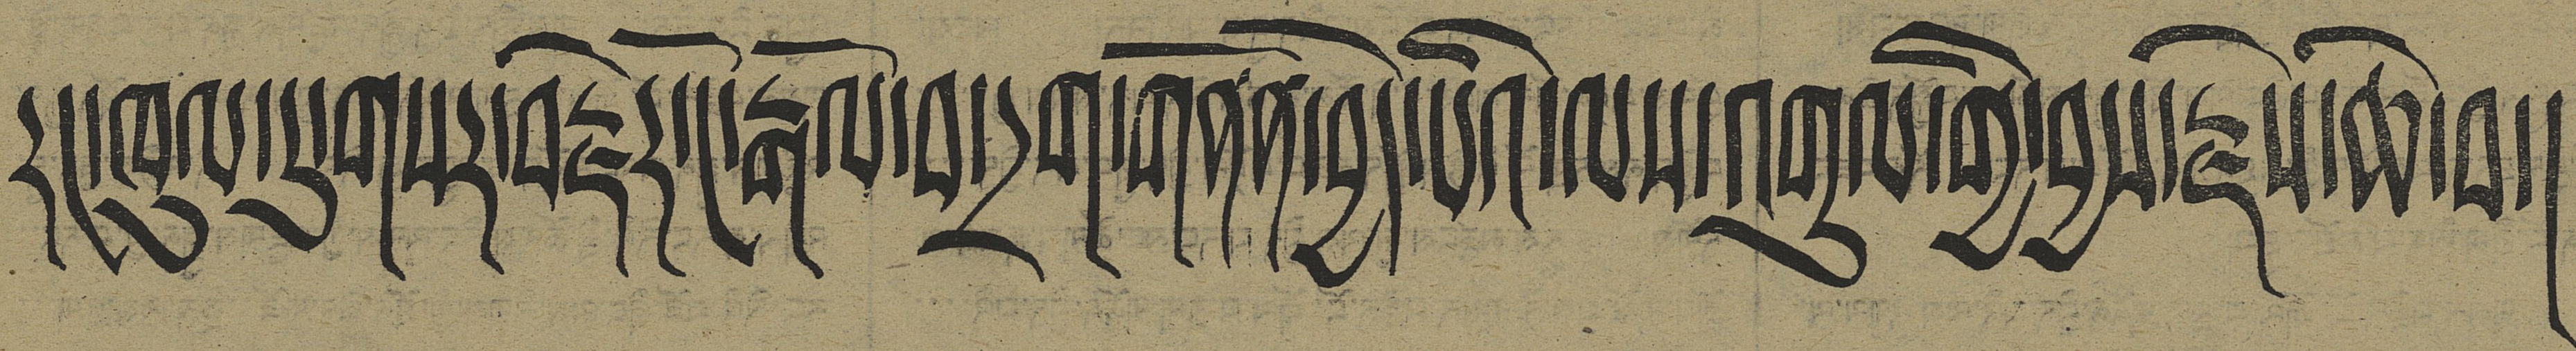རང་ཁུལ་དུ་གསར་བརྗེར་ངོ་རྒོལ་བ་དྲག་གནོན་བྱེད་པའི་ལས་འགུལ་གྱི་བྱས་རྗེས་ཆེ་བ།
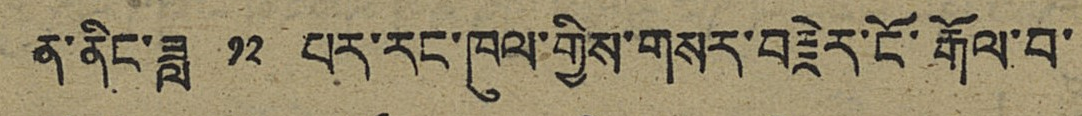ན་ནིང་ཟླ ༡༢ པར་རང་ཁུལ་གྱིས་གསར་བརྗེར་ངོ་རྒོལ་བ་
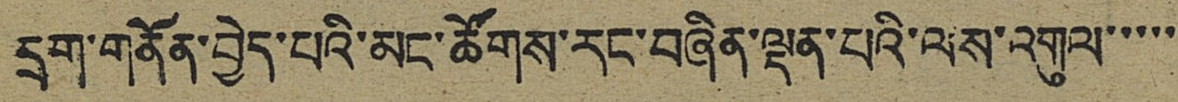དྲག་གནོན་བྱེད་པའི་མང་ཚོགས་རང་བཞིན་ལྡན་པའི་ལས་འགུལ་་་་་
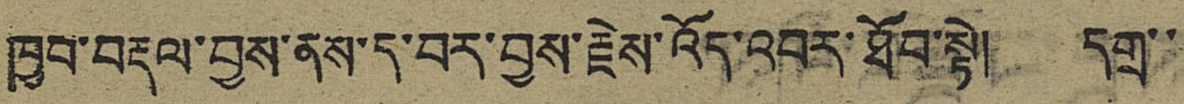ཁྱབ་བརྡལ་བྱས་ནས་ད་བར་བྱས་རྗེས་འོད་འབར་ཐོབ་སྟེ། དགྲ་་
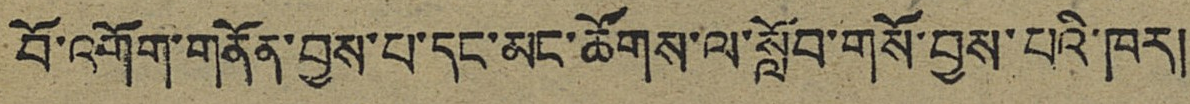བོ་འགོག་གནོན་བྱས་པ་དང་མང་ཚོགས་ལ་སློབ་གསོ་བྱས་པའི་ཁར།
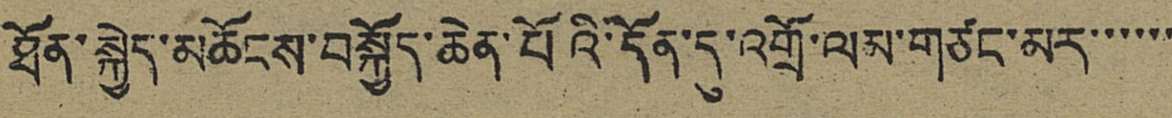ཐོན་སྐྱེད་མཆོངས་བསྐྱོད་ཆེན་པོའི་དོན་དུ་འགྲོ་ལམ་གཙང་མར་་་་་་
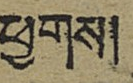ཕྱགས།
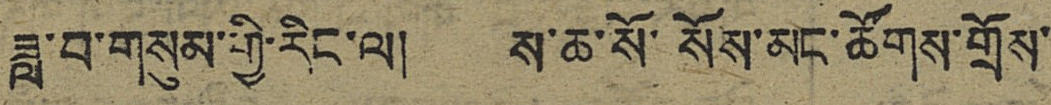ཟླ་བ་གསུམ་གྱི་རིང་ལ། ས་ཆ་སོ་སོས་མང་ཚོགས་གྲོས་
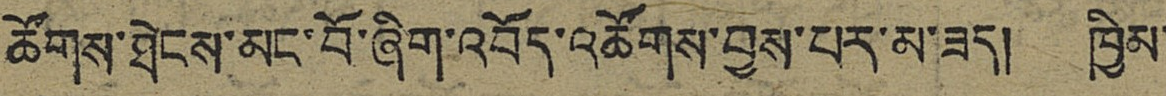ཚོགས་ཐེངས་མང་བོ་ཞིག་འབོད་འཚོགས་བྱས་པར་མ་ཟད། ཁྱིམ་
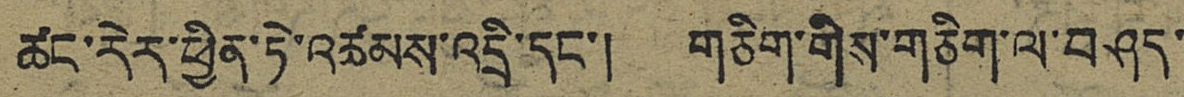ཚང་རེར་ཕྱིན་ཏེ་འཚམས་འདྲི་དང་། གཅིག་གིས་གཅིག་ལ་བཤད་
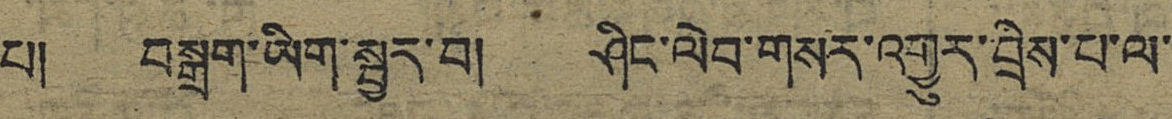པ། བསྒྲག་ཡིག་སྦྱར་བ། ཤིང་ལེབ་གསར་འགྱུར་བྲིས་པ་ལ་
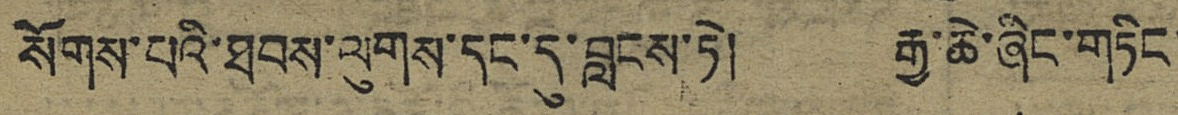སོགས་པའི་ཐབས་ལུགས་དང་དུ་བླངས་ཏེ། རྒྱ་ཆེ་ཞིང་གཏིང་
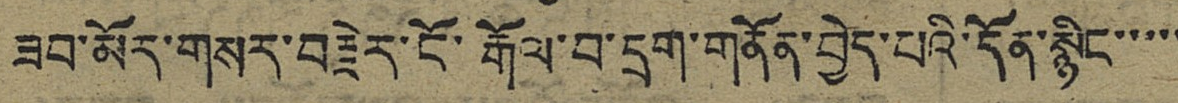ཟབ་མོར་གསར་བརྗེར་ངོ་རྒོལ་བ་དྲག་གནོན་བྱེད་པའི་དོན་སྙིང་་་་་
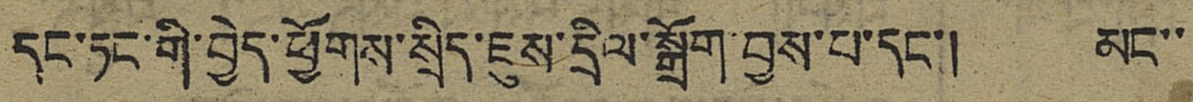དང་ཏང་གི་བྱེད་ཕྱོགས་སྲིད་ཇུས་དྲིལ་སྒྲོག་བྱས་པ་དང་། མང་་
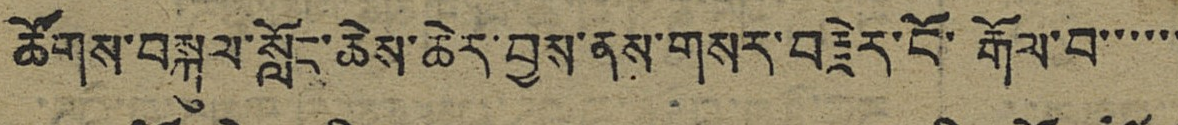ཚོགས་བསྐུལ་སློང་ཆེས་ཆེར་བྱས་ནས་གསར་བརྗེར་ངོ་རྒོལ་བ་་་་་་
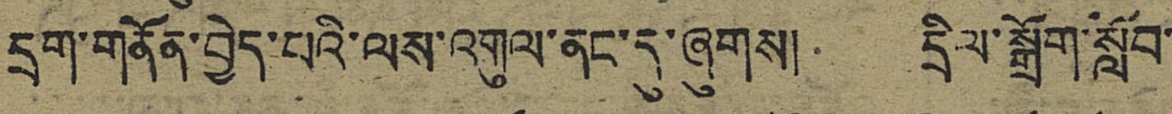དྲག་གནོན་བྱེད་པའི་ལས་འགུལ་ནང་དུ་ཞུགས། དྲིལ་སྒྲོག་སློབ་
